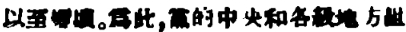以至變壞。爲此，黨的中央和各級地方組
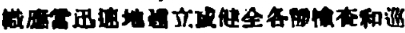織應當迅速地建立或健全各種檢查和巡
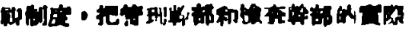視制度，把管理幹部和檢查幹部的實際
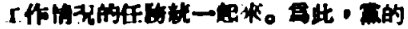工作情況的任務統一起來。爲此，黨的
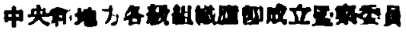中央和地方各級組織應卽成立監察委員
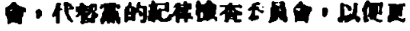會，代替黨的紀律檢查委員會，以便更
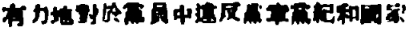有力地對於黨員中違反黨章黨紀和國家
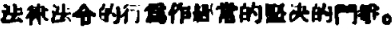法律法令的行爲作經常的堅決的鬥爭。
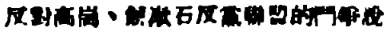反對高崗、饒漱石反黨聯盟的鬥爭說
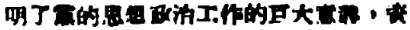明了黨的思想政治工作的巨大意義，資
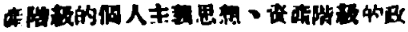產階級的個人主義思想、資產階級的政
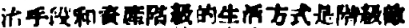治手段和資產階級的生活方式是階級敵
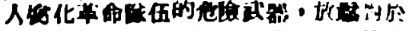人腐化革命隊伍的危險武器，放鬆對於
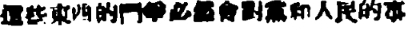這些東西的鬥爭必然會對黨和人民的事
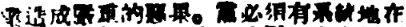業造成嚴重的惡果。黨必須有系統地在
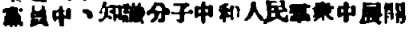黨員中、知識分子中和人民羣衆中展開
